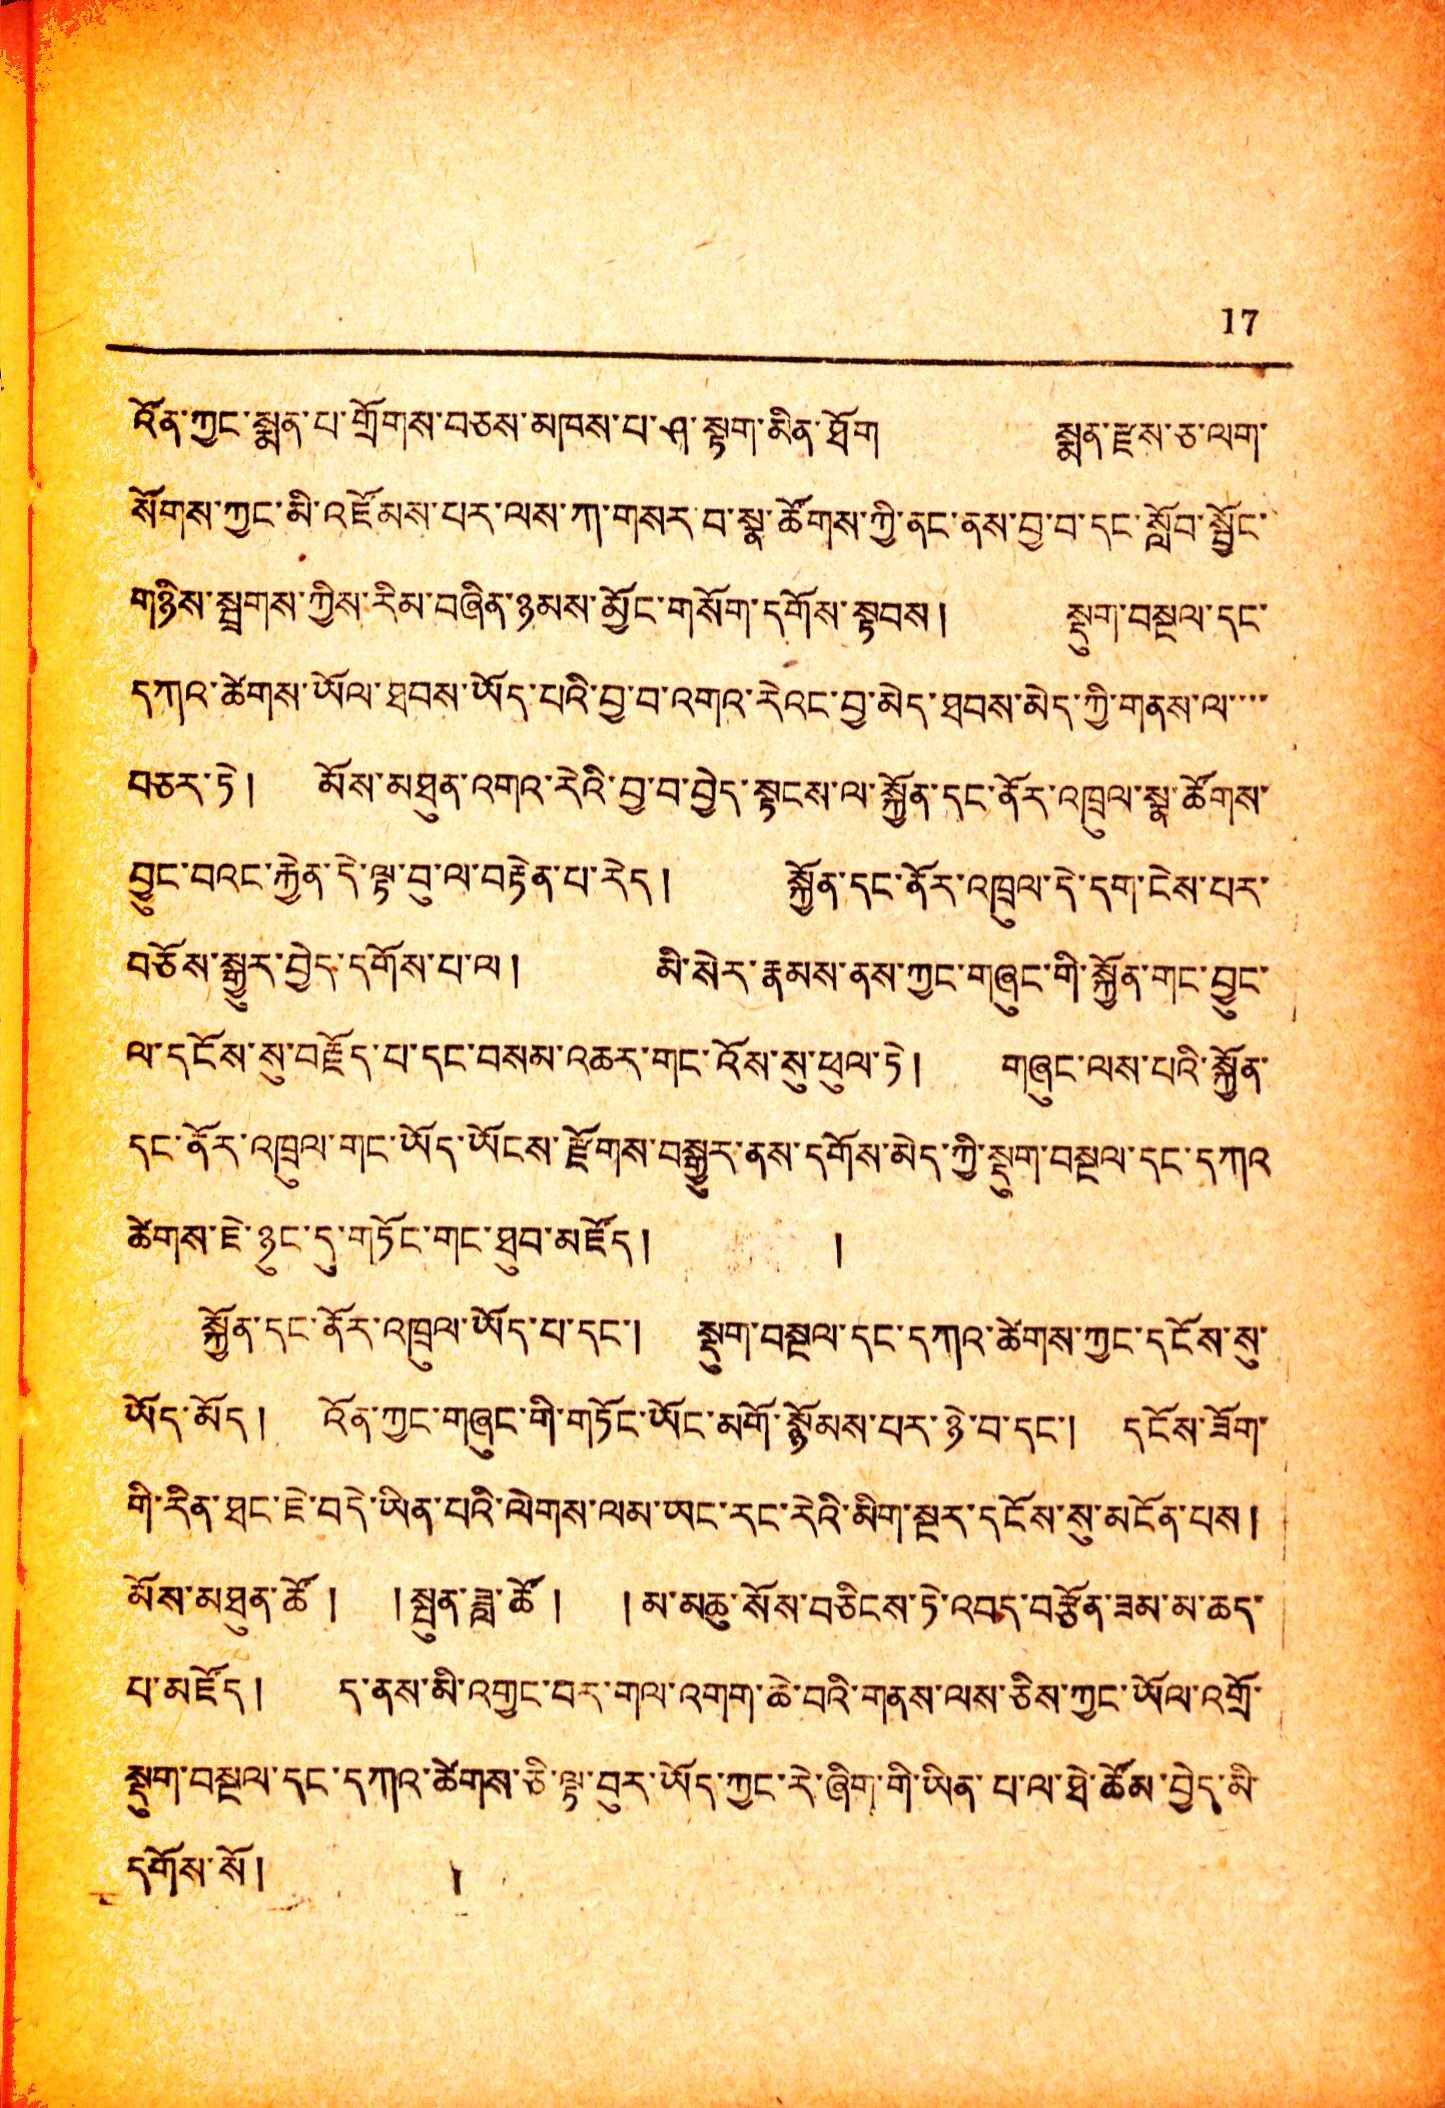17
འོན་ཀྱང་སྨན་པ་གྲོགས་བཅས་མཁས་པ་ཤ་སྟག་མིན་ཐོག སྨན་རྫས་ཅ་ལག་
སོགས་ཀྱང་མི་འཛོམས་པར་ལས་ཀ་གསར་བ་སྣ་ཚོགས་ཀྱི་ནང་བྱ་བ་དང་སློབ་སྦྱོང་
གཉིས་སྦྲགས་ཀྱིས་རིམ་བཞིན་ཉམས་མྱོང་གསོག་དགོས་སྟབས། སྡུག་བསྔལ་དང་
དཀའ་ཚེགས་ཡོལ་ཐབས་ཡོད་པའི་བྱ་བ་འགའ་རེའང་བྱ་མེད་ཐབས་མེད་ཀྱི་གནས་ལ་་་་
བཅར་ཏེ། མོས་མཐུན་འགའ་རེའི་བྱ་བ་བྱེད་སྟངས་ལ་སྐྱོན་དང་ནོར་འཁྲུལ་སྣ་ཚོགས་
བྱུང་བའང་རྐྱེན་དེ་ལྟ་བུ་ལ་བརྟེན་པ་རེད ། སྐྱོན་དང་ནོར་འཁྲུལ་དེ་དག་ངེས་པར་
བཅོས་སྒྱུར་བྱེད་དགོས་པ་ལ ། མི་སེར་རྣམས་ནས་ཀྱང་གཞུང་གི་སྐྱོན་གང་བྱུང་
ལ་དངོས་སུ་བརྗོད་པ་དང་བསམ་འཆར་གང་འོས་སུ་ཕུལ་ཏེ། གཞུང་ལས་པའི་སྐྱོན་
དང་ནོར་འཁྲུལ་གང་ཡོད་ཡོངས་རྫོགས་བསྒྱུར་ནས་དགོས་མེད་ཀྱི་སྡུག་བསྔལ་དང་དཀའ
ཚེགས་ཇེ་ཉུང་དུ་གཏོང་གང་ཐུབ་མཛོད ། །
སྐྱོན་དང་ནོར་འཁྲུལ་ཡོད་པ་དང་། སྡུག་བསྔལ་དང་དཀའ་ཚེགས་ཀྱང་དངོས་སུ་
ཡོད་མོད། འོན་ཀྱང་གཞུང་གི་གཏོང་ཡོང་མགོ་སྙོམས་པར་ཉེ་བ་དང་། དངོས་ཟོག་
གི་རིན་ཐང་ཇེ་བདེ་ཡིན་པའི་ལེགས་ལམ་ཡང་རང་རེའི་མིག་སྔར་དངོས་སུ་མངོན་པས །
མོས་མཐུན་ཚོ ། །སྤུན་ཟླ་ཚོ ། །མ་མཆུ་སོས་བཅིངས་ཏེ་འབད་བརྩོན་ཟམ་མ་ཆད་
པ་མཛོད ། ད་ནས་མི་འགྱང་བར་གལ་འགག་ཆེ་བའི་གནས་ལས་ཅིས་ཀྱང་ཡོལ་འགྲོ་
སྡུག་བསྔལ་དང་དཀའ་ཚེགས་ཅི་ལྟ་བུར་ཡོད་ཀྱང་རེ་ཞིག་གི་ཡིན་པ་ལ་ཐེ་ཚོམ་བྱེད་མི་
དགོས་སོ། །
